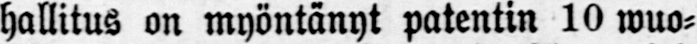hallitus on myöntänyt patentin 10 wuo-
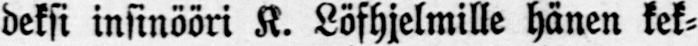deksi insinööri K. Löfhjelmille hänen kek-
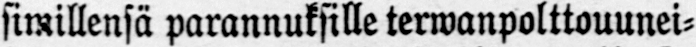simillensä parannuksille terwanpolttouunei-
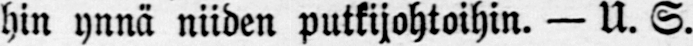hin ynnä niiden putkijohtoihin. — U. S.
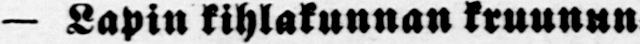— Lapin kihlakunnan kruunun-
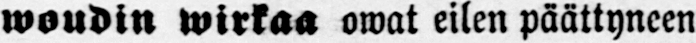woudin wirkaa owat eilen päättyneen
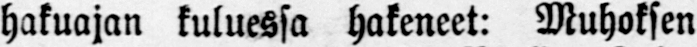hakuajan kuluessa hakeneet: Muhoksen
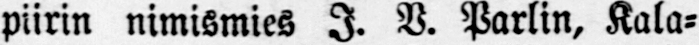piirin nimismies I. V. Parlin, Kala-
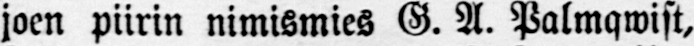joen piirin nimismies G. A. Palmqwist,
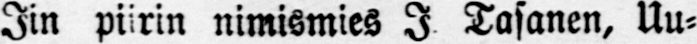Iin piirin nimismies I Tasanen, Uu-
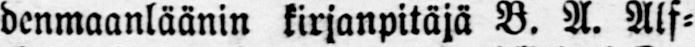denmaanläänin kirjanpitäjä B. A. Alf-
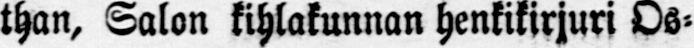than. Salon kihlakunnan henkikirjuri Os-
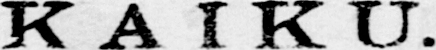KAIKU.
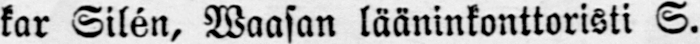kar Silén, Waasan lääninkonttoristi S.
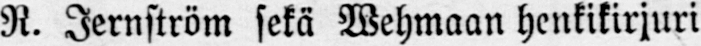R. Jernström sekä Wehmaan henkikirjuri
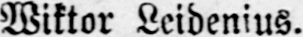Wiktor Leidenius.
